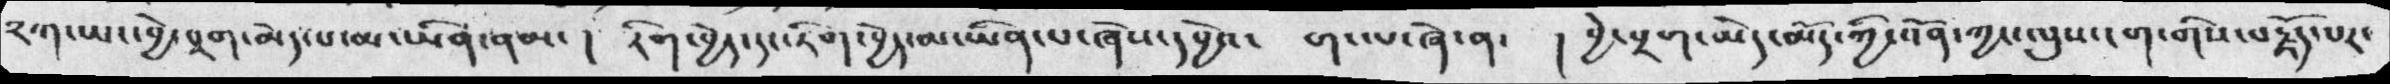༢ཀ་ཡང་བྱེ་བྲག་མེད་པ་མ་ཡིན་ནམ་  ། རིག་བྱེད་དང་རིག་བྱེད་མ་ཡིན་པ་ཞེས་དཔྱེའ་     ག་ལ་ཞེ་ན་    ། བྱེ་བྲག་མེད་མོད་ཀྱི་འོན་ཀྱང་ལུས་ངག་གིས་བརྗོད་པར་
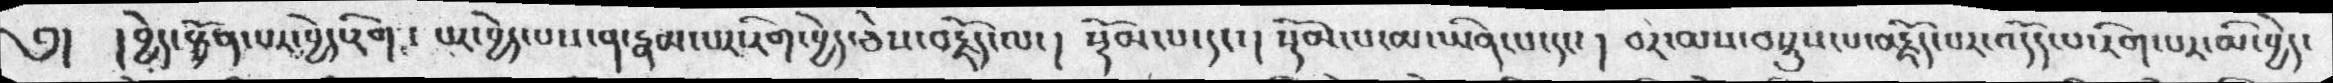༅།  ། བྱེད་སྟོན་པར་བྱེད་རིག་  པར་བྱེད་པས་ན་རྣམ་པར་རིག་བྱེད་ཅེས་བརྗོད་ལ་ ། སྡོམ་པ་དང་།  སྡོམ་པ་མ་ཡིན་པ་དང་ ། བར་མས་བསྡུས་པ་བརྗོད་པར་འདོད་པ་རིག་པར་མི་བྱེད་
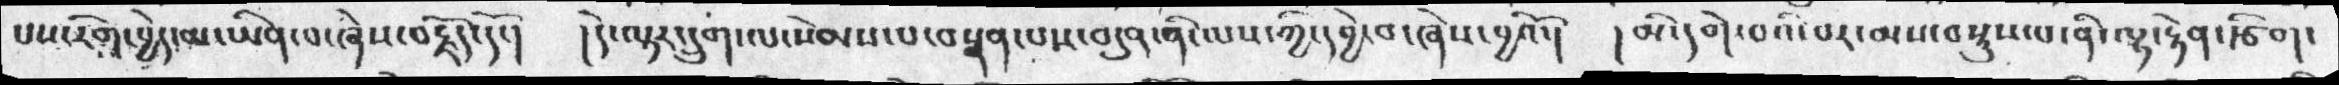པས་རིག་བྱེད་མ་ཡིན་པ་ཞེས་བརྗོད་དོ་།  །དེ་ལྟར་དྲུག་ལ་སེམས་པ་བསྣན་པས་བདུན་ནི་ལས་ཀྱི་དབྱེ་བ་ཞེས་བྱའོ་།  ། མི་དགེ་པའི་བར་མས་བསྡུས་པ་ནི་ལྷ་རྟེན་དཅིག་
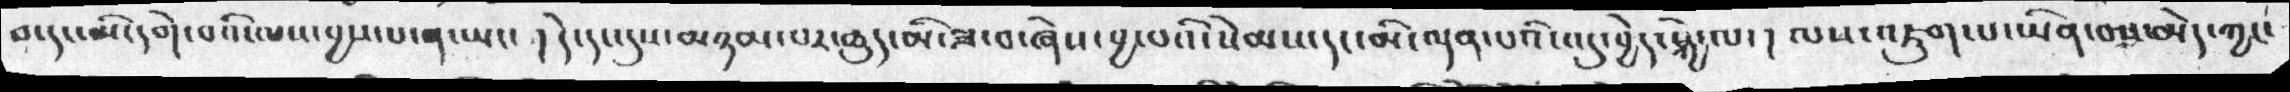བ་དང་མི་དགེ་བའི་ལས་བྱས་པ་ན་ཡང་ ། དེ་དང་དུས་མཉམ་པར་ཆུད་མི་ཟ་བ་ཞེས་བྱ་བའི་སེམས་དང་མི་ལྡན་པའི་འདུ་བྱེད་སྐྱེ་ལ་ ། ལས་འཇུག་པ་ཡིན་བས་མེད་ཀྱང་
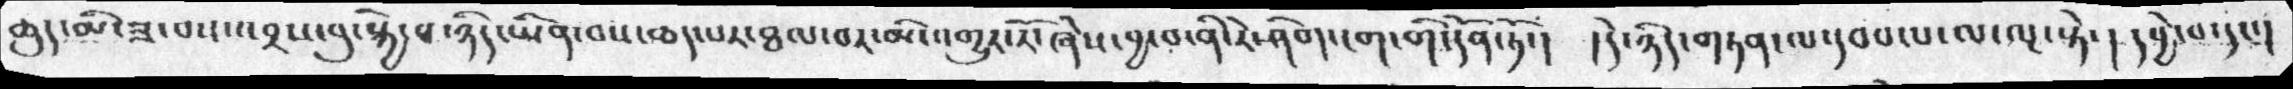ཆུད་མི་ཟ་བས་འབྲས་བུ་སྐྱེ་བ་ཉིད་ཡིན་བས་ཆད་པར་ཐལ་བར་མི་འགྱུར་རོ་ཞེས་བྱ་བ་ནི་རེ་ཤིག་ངག་གི་དོན་ཏོ་།  །དེ་ཉིད་གཏན་ལ་དབབ་པ་ལ་ལྔ་སྟེ་ ། དབྱེ་བ་དང་།
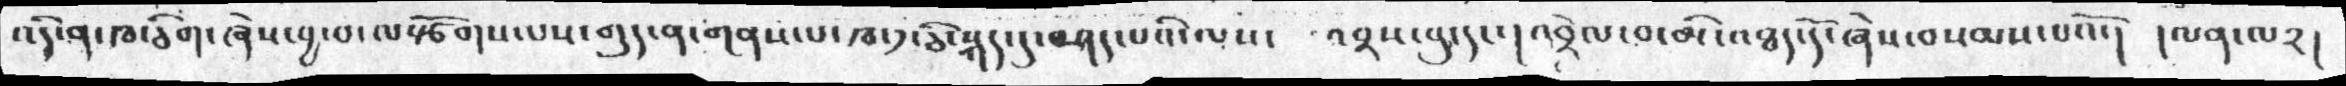འདི་ན་ཁ་ཅིག་ཞེས་བྱ་བ་ལསྩོགས་པས་གུད་ན་གནས་པ་ཁ་༡་ཅི་སྐད་དུ་བཤད་པའི་ལས་  འབྲས་བུ་དང་། འབྲེལ་བ་མི་འཐད་དོ་ཞེས་བསམས་པའོ་།  ། ལན་ལ༢།
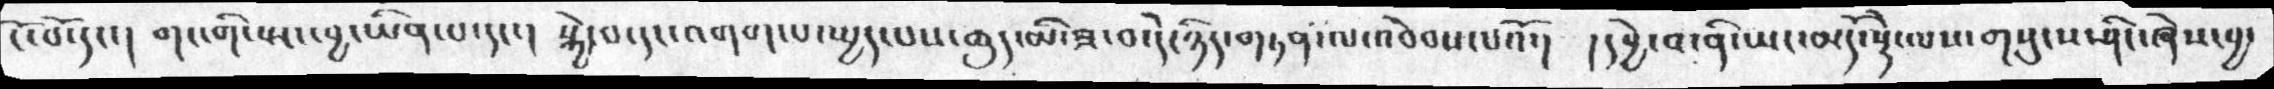ངོ་བོ་དང་།  གང་གིས་སྤང་བྱ་ཡིན་པ་དང་། སྐྱེ་བ་དང་འགག་པ་སྤྱད་པས་ཆུད་མི་ཟ་བ་དེ་ཉིད་གཏན་ལ་འབེབས་པའོ་།  ། དབྱེ་བ་ནི་ཡང་མདོ་སྡེ་ལས་གསུངས་ཤིང་ཞེས་བྱ་
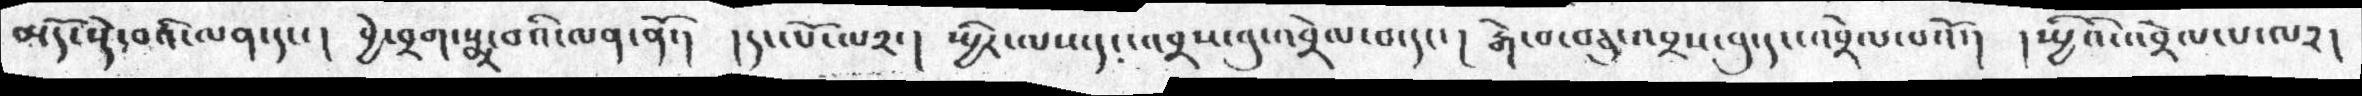མདོ་སྡེ་བའི་ལན་དང་།  བྱེ་བྲག་སྨྲ་བའི་ལན་ནོ་།  ། དང་པོ་ལ༢་། སྤྱིར་ལས་དང་འབྲས་བུ་འབྲེལ་བ་དང་། རྒེ་བ་བཅུ་འབྲས་བུ་དང་འབྲེལ་པའོ་།  །སྤྱིའི་འབྲེལ་པ་ལ༢།
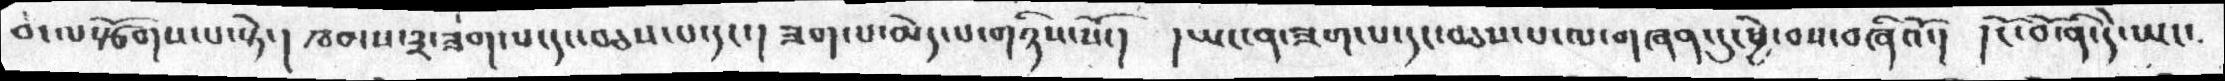བ་ལསྩོགས་པ་སྟེ་།  ཁམས་༣་ཟག་པ་དང་བཅས་པ་དང་། ཟག་པ་མེད་པ་གཉིས་སོ་།   །ཡང་ན་ཟག་པ་དང་བཅས་པ་ལ་གཞན་དུ་ཕྱེ་བས་བཞིའོ་།   །ངོ་བོ་ནི་དེ་ཡང་
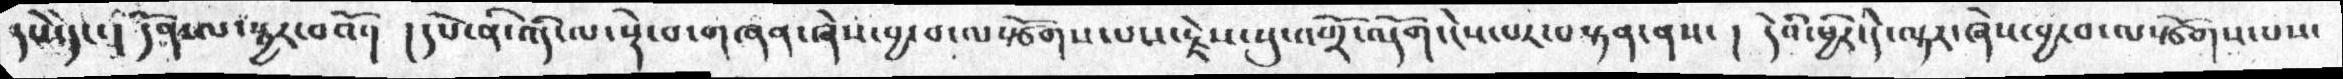དཔེ་དང་ ། དོན་ལ་སྦྱར་བའོ་།  །དཔེ་ནི་འདི་ལ་སྡེ་བ་གཞན་ཞེས་བྱ་བ་ལསྩོགས་པས་རྗེས་སུ་འགྲོ་འདོག་ངེས་པར་བསྟན་ནས་  ། དེའི་ཕྱིར་དེ་ལྟར་ཞེས་བྱ་བ་ལསྩོགས་པས་
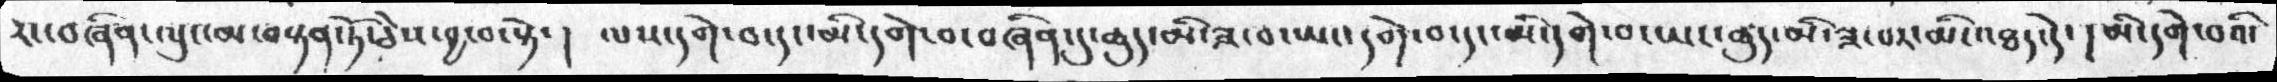རང་བཞིན་ལུང་མ་བསྟན་ཏོ་ཅེས་བྱ་བ་སྟེ་།  ལས་དགེ་བ་དང་མི་དགེ་བ་བཞིན་དུ་ཆུད་མི་ཟ་བ་ཡང་དགེ་བ་དང་མི་དགེ་བ་ཡང་ཚུད་མི་ཟ་པར་མི་འཐད་དེ་། མི་དགེ་བའི་
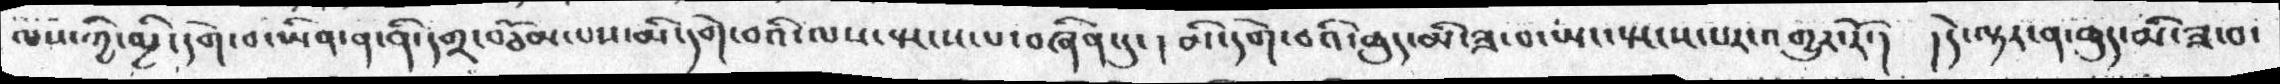ལས་ཀྱི་མྱི་དགེ་བ་ཡིན་ན་ནི་དགྲ་བཅོམ་པས་མི་དགེ་བའི་ལས་སྤངས་པ་བཞིན་དུ་།  མི་དགེ་བའི་ཆུད་མི་ཟ་བ་ཡང་སྤངས་པར་འགྱུར་རོ་།  ། དེ་ལྟར་ན་ཆུད་མི་ཟ་བ་
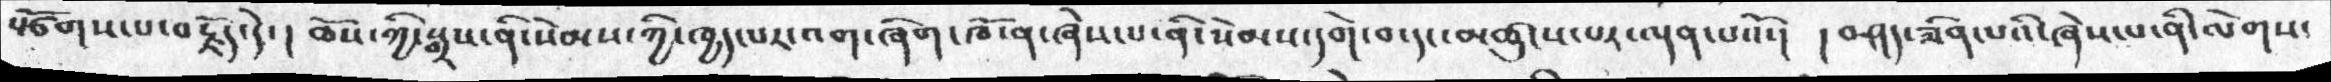སྩོགས་པ་བརྗོད་དེ་ ། ཆོས་ཀྱི་སྒྲས་ནི་སེམས་ཀྱི་ཁྱད་པར་འག་ཞིག་ཁོ་ན་ཞེས་པ་ནི་སེམས་དགེ་བ་དང་མཚུངས་པར་ལྡན་པའོ་།  ། བཤད་ཟིན་པའི་ཞེས་པ་ནི་ལེགས་
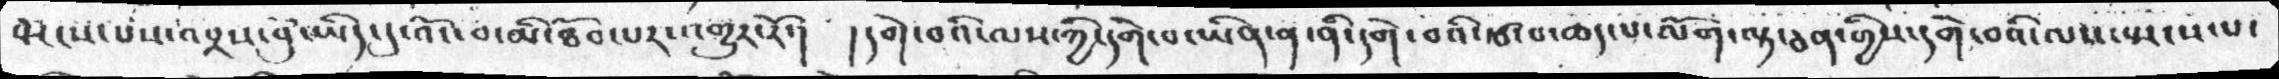སྤངས་པས་འབྲས་བུ་ཡིད་དུ་འོང་བ་མི་ཐོབ་པར་འགྱུར་རོ་།  །དགེ་བའི་ལས་ཀྱི་དགེ་བ་ཡིན་ནི་དགེ་བའི་རྩ་བ་ཆད་པ་ལོག་ལྟ་ཅན་གྱིས་དགེ་བའི་ལས་སྤངས་པ་
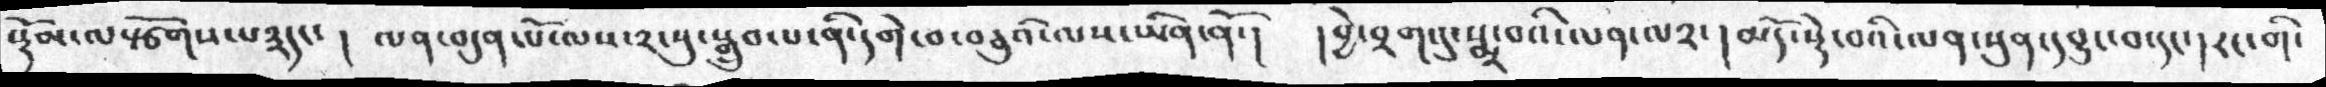སྡོམ་ལསྩོགས་པ་༣དང་ ། ལན་བདུན་པོ་ལས་༢་སུ་སྒྲུབ་པ་ནི་དགེ་བ་བཅུའི་ལས་ཡིན་ནོ་།  །བྱེ་བྲག་དུ་སྨྲ་བའི་ལན་ལ༢་ ། མདོ་སྡེ་བའི་ལན་སུན་དབྱུང་བ་དང་། རང་གི་
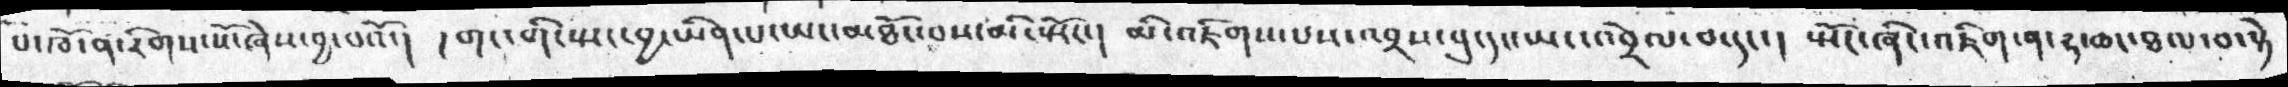པོ་ཁོ་ན་རིགས་སོ་ཞེས་བྱ་བའོ་།  ། གང་གི་སྤང་བྱ་ཡིན་པ་ཡང་མཐོང་བས་མི་སྤོང་། མི་འཇིགས་པས་འབྲས་བུ་དང་ཡང་འབྲེལ་བ་དང་།  སྤོང་ཞིང་འཇིག་ན་ཧ་ཆང་ཐལ་བ་སྟེ
